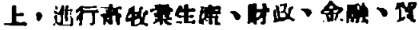上，進行畜牧業生產、財政、金融、貿
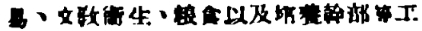易、文敎衛生、粮食以及培養幹部等工
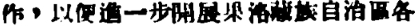作，以便進一步開展果洛藏族自治區各
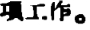項工作。
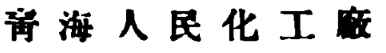靑 海 人 民 化 工 廠
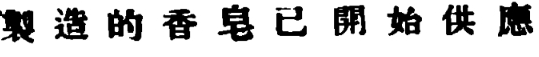製 造 的 香 皂 已 開 始 供 應
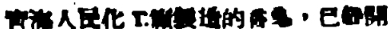靑海人民化工廠製造的香皂，以及開
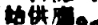始供應。
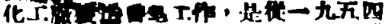化工廠製造香皂工作，是從一九五四
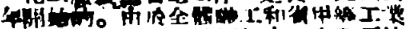年開始的。由於全體職工和省甲等工業
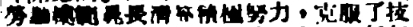勞動模範晁長清等積極努力，克服了技
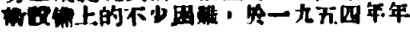術設備上的不少困難，於一九五四年年
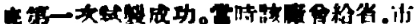底第一次試製成功。當時該廠層給省、市
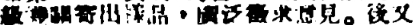級機關寄出樣品，廣泛徵求意見。後又
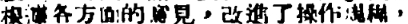根據各方面的意見，改進了操作規程，
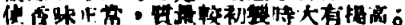使香味正常，質量較初製時大有提高。
